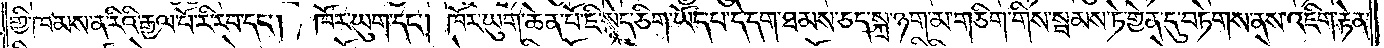གྱི་ཁམས་ན་རིའི་རྒྱལ་པོ་རི་རབ་དང༌། ཁོར་ཡུག་དང༌། ཁོར་ཡུག་ཆེན་པོ་ཇི་སྙེད་གཅིག་ཡོད་པ་དེ་དག་ཐམས་ཅད་སྐྲ་ཉག་མ་གཅིག་གིས་སྦམས་ཏེ་གྱེན་དུ་བཏེགས་ནས་འཇིག་རྟེན་
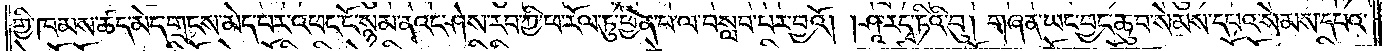གྱི་ཁམས་ཚད་མེད་གྲངས་མེད་པར་འཕང་ངོ་སྙམ་ནའང་ཤེས་རབ་ཀྱི་ཕ་རོལ་ཏུ་ཕྱིན་པ་ལ་བསླབ་པར་བྱའོ། །ཤཱ་ར་དྭ་ཏིའི་བུ། གཞན་ཡང་བྱང་ཆུབ་སེམས་དཔའ་སེམས་དཔའ་
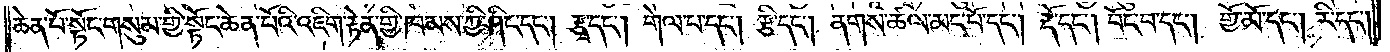ཆེན་པོ་སྟོང་གསུམ་གྱི་སྟོང་ཆེན་པོའི་འཇིག་རྟེན་གྱི་ཁམས་ཀྱི་ཤིང་དང༌། རྩྭ་དང༌། གེལ་པ་དང༌། རྩི་དང༌། ནགས་ཚལ་མང་པོ་དང༌། རྡོ་དང༌། བོང་བ་དང༌། གྱོ་མོ་དང༌། རི་དང་
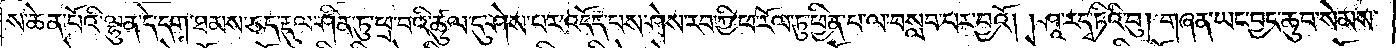ས་ཆེན་པོའི་ལྷུན་དེ་དག་ཐམས་ཅད་རྡུལ་ཤིན་ཏུ་ཕྲ་བའི་ཚུལ་དུ་ཤེས་པར་འདོད་པས་ཤེས་རབ་ཀྱི་ཕ་རོལ་ཏུ་ཕྱིན་པ་ལ་བསླབ་པར་བྱའོ། །ཤཱ་ར་དྭ་ཏིའི་བུ། གཞན་ཡང་བྱང་ཆུབ་སེམས་
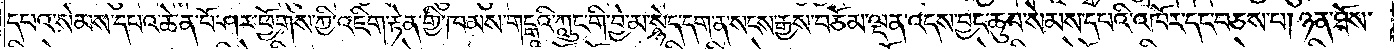དཔའ་སེམས་དཔའ་ཆེན་པོ་ཤར་ཕྱོགས་ཀྱི་འཇིག་རྟེན་གྱི་ཁམས་གངྒཱའི་ཀླུང་གི་བྱེ་མ་སྙེད་དག་ན་སངས་རྒྱས་བཅོམ་ལྡན་འདས་བྱང་ཆུབ་སེམས་དཔའི་འཁོར་དང་བཅས་པ། ཉན་ཐོས་
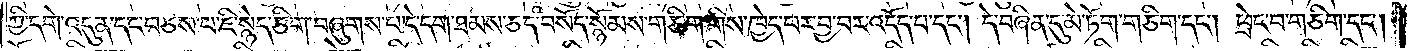ཀྱི་དགེ་འདུན་དང་བཅས་པ་ཇི་སྙེད་ཅིག་བཞུགས་པ་དེ་དག་ཐམས་ཅད་བསོད་སྙོམས་གཅིག་གིས་ཁྱེད་པར་བྱ་བར་འདོད་པ་དང༌། དེ་བཞིན་དུ་མེ་ཏོག་གཅིག་དང༌། ཕྲེང་བ་གཅིག་དང༌།
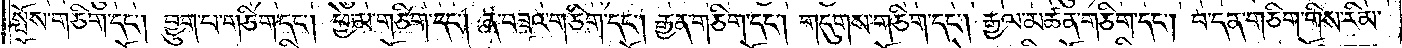སྤོས་གཅིག་དང༌། བྱུག་པ་གཅིག་དང༌། ཕྱེ་མ་གཅིག་དང༌། ན་བཟའ་གཅིག་དང༌། རྒྱན་གཅིག་དང༌། གདུགས་གཅིག་དང༌། རྒྱལ་མཚན་གཅིག་དང༌། བ་དན་གཅིག་གིས་རིམ་
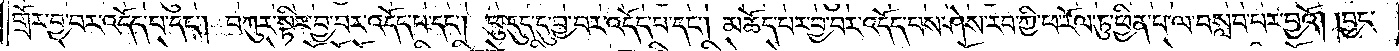གྲོར་བྱ་བར་འདོད་པ་དང༌། བཀུར་སྟིར་བྱ་བར་འདོད་པ་དང༌། ཕུ་དུད་དུ་བྱ་བར་འདོད་པ་དང༌། མཆོད་པར་བྱ་བར་འདོད་པས་ཤེས་རབ་ཀྱི་ཕ་རོལ་ཏུ་ཕྱིན་པ་ལ་བསླབ་པར་བྱའོ། །བྱང་
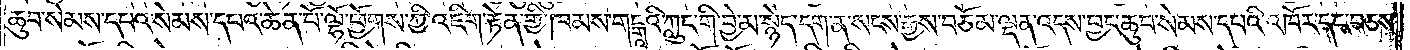ཆུབ་སེམས་དཔའ་སེམས་དཔའ་ཆེན་པོ་ལྷོ་ཕྱོགས་ཀྱི་འཇིག་རྟེན་གྱི་ཁམས་གངྒཱའི་ཀླུང་གི་བྱེ་མ་སྙེད་དག་ན་སངས་རྒྱས་བཅོམ་ལྡན་འདས་བྱང་ཆུབ་སེམས་དཔའི་འཁོར་དང་བཅས་
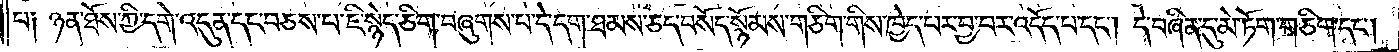པ། ཉན་ཐོས་ཀྱི་དགེ་འདུན་དང་བཅས་པ་ཇི་སྙེད་ཅིག་བཞུགས་པ་དེ་དག་ཐམས་ཅད་བསོད་སྙོམས་གཅིག་གིས་ཁྱེད་པར་བྱ་བར་འདོད་པ་དང༌། དེ་བཞིན་དུ་མེ་ཏོག་གཅིག་དང༌།
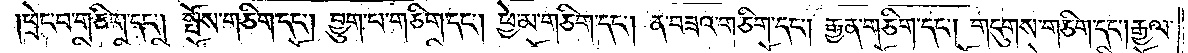ཕྲེང་བ་གཅིག་དང༌། སྤོས་གཅིག་དང༌། བྱུག་པ་གཅིག་དང༌། ཕྱེ་མ་གཅིག་དང༌། ན་བཟའ་གཅིག་དང༌། རྒྱན་གཅིག་དང༌། གདུགས་གཅིག་དང༌། རྒྱལ་
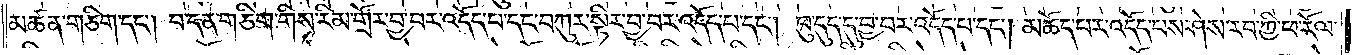མཚན་གཅིག་དང༌། བ་དན་གཅིག་གིས་རིམ་གྲོར་བྱ་བར་འདོད་པ་དང་བཀུར་སྟིར་བྱ་བར་འདོད་པ་དང༌། ཕུ་དུད་དུ་བྱ་བར་འདོད་པ་དང༌། མཆོད་པར་འདོད་པས་ཤེས་རབ་ཀྱི་ཕ་རོལ་
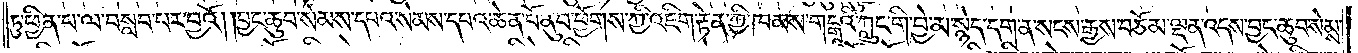ཏུ་ཕྱིན་པ་ལ་བསླབ་པར་བྱའོ། །བྱང་ཆུབ་སེམས་དཔའ་སེམས་དཔའ་ཆེན་པོ་ནུབ་ཕྱོགས་ཀྱི་འཇིག་རྟེན་ཀྱི་ཁམས་གངྒཱའི་ཀླུང་གི་བྱེ་མ་སྙེད་དག་ན་སངས་རྒྱས་བཅོམ་ལྡན་འདས་བྱང་ཆུབ་སེམས་
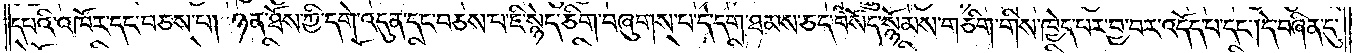དཔའི་འཁོར་དང་བཅས་པ། ཉན་ཐོས་ཀྱི་དགེ་འདུན་དང་བཅས་པ་ཇི་སྙེད་ཅིག་བཞུགས་པ་དེ་དག་ཐམས་ཅད་བསོད་སྙོམས་གཅིག་གིས་ཁྱེད་པར་བྱ་བར་འདོད་པ་དང༌། དེ་བཞིན་དུ་
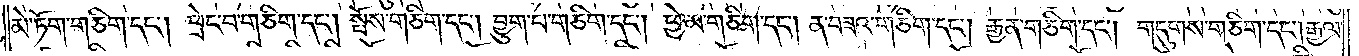མེ་ཏོག་གཅིག་དང༌། ཕྲེང་བ་གཅིག་དང༌། སྤོས་གཅིག་དང༌། བྱུག་པ་གཅིག་དང༌། ཕྱེ་མ་གཅིག་དང༌། ན་བཟའ་གཅིག་དང༌། རྒྱན་གཅིག་དང༌། གདུགས་གཅིག་དང༌། རྒྱལ་
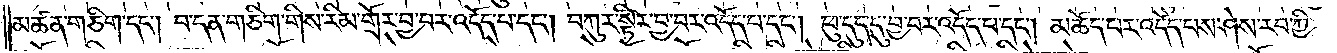མཚན་གཅིག་དང༌། བ་དན་གཅིག་གིས་རིམ་གྲོར་བྱ་བར་འདོད་པ་དང༌། བཀུར་སྟིར་བྱ་བར་འདོད་པ་དང༌། ཕུ་དུད་དུ་བྱ་བར་འདོད་པ་དང༌། མཆོད་པར་འདོད་པས་ཤེས་རབ་ཀྱི་
